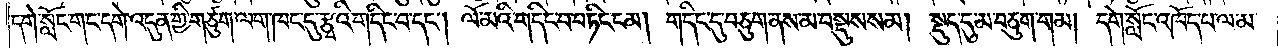དགེ་སློང་གང་དགེ་འདུན་གྱི་གཙུག་ལག་ཁང་དུ་རྩྭའི་གདིང་བ་དང༌། ལོ་མའི་གདིང་བ་བཏིང་ངམ། གདིང་དུ་བཅུག་ནས་མ་བསྡུས་སམ། སྡུད་དུ་མ་བཅུག་གམ། དགེ་སློང་འཁོད་པ་ལ་མ་
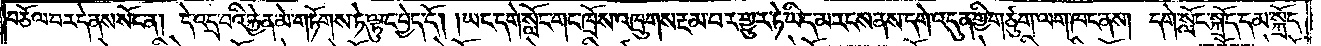བཅོལ་བར་དེ་ནས་སོང་ན། དེ་འདྲ་བའི་རྐྱེན་མེ་གཏོགས་ཏེ་ལྟུང་བྱེད་དོ། །ཡང་དགེ་སློང་གང་ཁྲོས་འཁྲུགས་རྔམ་པར་གྱུར་ཏེ་ཡིད་མ་རངས་ནས་དགེ་འདུན་གྱི་གཙུག་ལག་ཁང་ནས། དགེ་སློང་སྐྲོད་དམ་སྐྲོད་
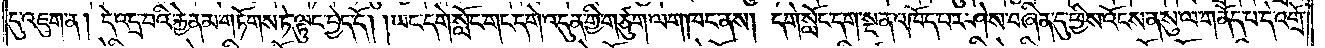དུ་འཇུག་ན། དེ་འདྲ་བའི་རྐྱེན་མ་གཏོགས་ཏེ་ལྟུང་བྱེད་དོ། །ཡང་དགེ་སློང་གང་དགེ་འདུན་གྱི་གཙུག་ལག་ཁང་ནས། དགེ་སློང་དག་སྔ་ན་འཁོད་པར་ཤེས་བཞིན་དུ་ཕྱིས་འོངས་ན་སུ་ལ་གནོད་པ་དེ་འགྲོ་
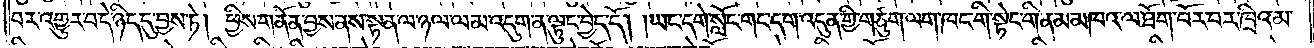བར་འགྱུར་བ་དེ་ཉིད་དུ་བྱས་ཏེ། ཕྱིས་གནོན་བྱས་ནས་སྟན་ལ་ཉལ་ལམ་འདུག་ན་ལྟུང་བྱེད་དོ། །ཡང་དགེ་སློང་གང་དག་འདུན་གྱི་གཙུག་ལག་ཁང་གི་སྟེང་གི་ནམ་མཁའ་ལ་ཐོག་པོར་བར་ཁྲིའམ་
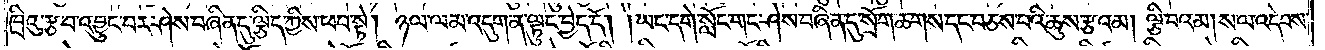ཁྲིའུ་རྩ་བ་འབྱུང་བར་ཤེས་བཞིན་དུ་ལྕིད་ཀྱིས་ཕབ་སྟེ། ཉལ་ལམ་འདུག་ན་ལྟུང་བྱེད་དོ། །ཡང་དགེ་སློང་གང་ཤེས་བཞིན་དུ་སྲོག་ཆགས་དང་བཅས་པའི་ཆུས་རྩའམ། ལྕི་བའམ། ས་ལ་འདེབས་
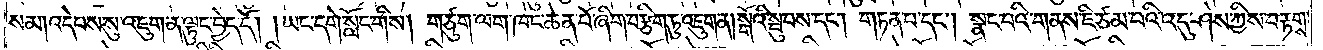སམ འདེབས་སུ་འཇུག་ན་ལྟུང་བྱེད་དོ། །ཡང་དགེ་སློང་གིས། གཙུག་ལག་ཁང་ཆེན་པོ་ཞིག་བརྩིག་ཏུ་འཇུག་ན།སྒོའི་སྦུབས་དང༌། གཏན་པ་དང༌། སྣང་བའི་གནས་ཇི་ཙམ་པའི་འདུ་ཤེས་ཀྱིས་བརྟགས་
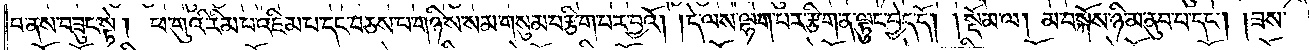པ་ནས་བཟུང་སྟེ། ཕ་གུའི་རིམ་པ་འཇིམ་པ་དང་བཅས་པ་གཉིས་སམ་གསུམ་བརྩིག་པར་བྱའོ། །དེ་ལས་ལྷག་པར་རྩིག་ན་ལྟུང་བྱེད་དོ།    །སྡོམ་ལ། མ་བསྐོས་ཉི་མ་ནུབ་པ་དང༌། ཟས་
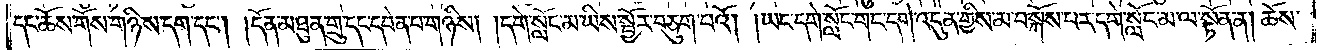དང་ཆོས་གོས་གཉིས་དག་དང༌། །དོན་མཐུན་གྲུ་དང་དབེན་པ་གཉིས། །དགེ་སློང་མ་ཡིས་སྦྱོར་བཅུག་པའོ། །ཡང་དགེ་སློང་གང་དགེ་འདུན་གྱིས་མ་བསྐོས་པར་དགེ་སློང་མ་ལ་སྟོན་ན། ཆོས་
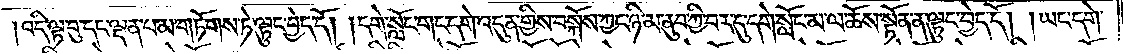།འདི་ལྟ་བུ་དང་ལྡན་པ་མ་གཏོགས་ཏེ་ལྟུང་བྱེད་དོ། །དགེ་སློང་གང་དགེ་འདུན་གྱིས་བསྐོས་ཀྱང་ཉི་མ་ནུབ་ཀྱི་བར་དུ་དགེ་སློང་མ་ལ་ཆོས་སྟོན་ན་ལྟུང་བྱེད་དོ། །ཡང་དགེ་
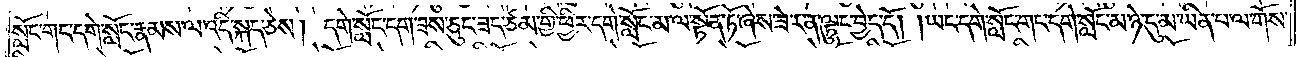སློང་གང་དགེ་སློང་རྣམས་ལ་འདི་སྐད་ཅེས། དགེ་སློང་དག་ཟས་ཅུང་ཟད་ཙམ་གྱི་ཕྱིར་དགེ་སློང་མ་ལ་སྟོན་ཏོ་ཞེས་ཟེར་ན་ལྟུང་བྱེད་དོ། །ཡང་དགེ་སློང་གང་དགེ་སློང་མ་ཉེ་དུ་མ་ཡིན་པ་ལ་གོས་
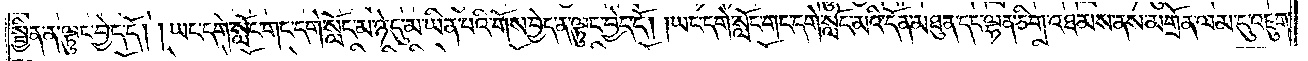སྦྱིན་ན་ལྟུང་བྱེད་དོ། །ཡང་དགེ་སློང་གང་དགེ་སློང་མ་ཉེ་དུ་མ་ཡིན་པའི་གོས་བྱེད་ན་ལྟུང་བྱེད་དོ། །ཡང་དགེ་སློང་གང་དགེ་སློང་མའི་དོན་མཐུན་དང་ལྷན་ཅིག་འཐམས་ནས་མགྲོན་ལམ་དུ་འཇུག་
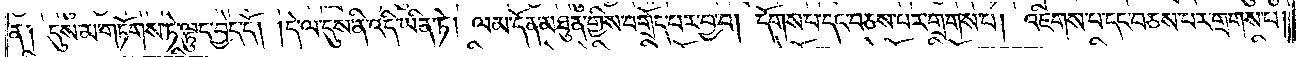ན༑ དུས་མ་གཏོགས་ཏེ་ལྟུང་བྱེད་དོ། །དེ་ལ་དུས་ནི་འདི་ཡིན་ཏེ། ལམ་དོན་མཐུན་གྱིས་བགྲོད་པར་བྱ་བ། དོགས་པ་དང་བཅས་པར་གྲགས་པ། འཇིགས་པ་དང་བཅས་པར་གྲགས་པ།
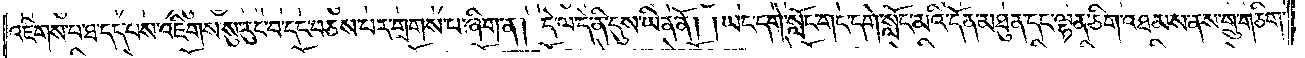འཇིགས་པ་ཐ་དད་པས་འཇིགས་སུ་རུང་བ་དང་བཅས་པར་གྲགས་པ་ཞིག་ན། དེ་ལ་དེ་ནི་དུས་ཡིན་ནོ། །ཡང་དགེ་སློང་གང་དགེ་སློང་མའི་དོན་མཐུན་དང་ལྷན་ཅིག་འཐམས་ནས་གྲུ་གཅིག་
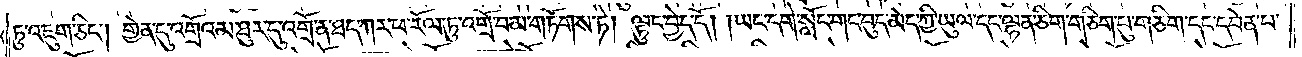ཏུ་འཇུག་ཅིང༌། གྱེན་དུ་འགྲོའམ་ཐུར་དུ་འགྲོ་ན་ཐད་ཀར་ཕ་རོལ་ཏུ་འགྲོ་བ་མ་གཏོགས་ཏེ། ལྟུང་བྱེད་དོ། །ཡང་དགེ་སློང་གང་བུད་མེད་ཀྱི་ཡུལ་དང་ལྷན་ཅིག་གཅིག་པུ་གཅིག་དང་དབེན་པ་
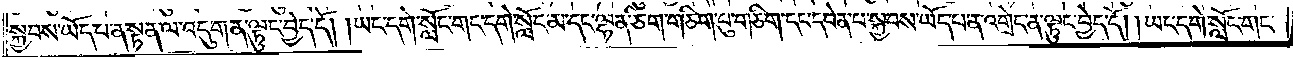སྐྱབས་ཡོད་པ་ན་སྟན་ལ་འདུག་ན་ལྟུང་བྱེད་དོ། །ཡང་དགེ་སློང་གང་དགེ་སློང་མ་དང་ལྷན་ཅིག་གཅིག་པུ་གཅིག་དང་དབེན་པ་སྐྱབས་ཡོད་པ་ན་འགྲེང་ན་ལྟུང་བྱེད་དོ། །ཡང་དགེ་སློང་གང་
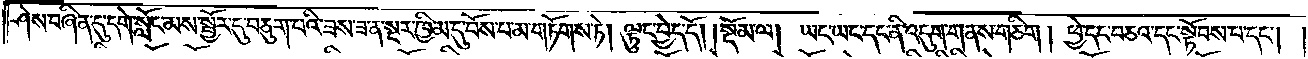ཤེས་བཞིན་དུ་དགེ་སློང་མས་སྦྱོར་དུ་བཅུག་པའི་ཟས་ཟ་ན་སྔར་ཁྱིམ་དུ་བོས་པ་མ་གཏོགས་ཏེ། ལྟུང་བྱེད་དོ།    །སྡོམ་ལ། ཡང་ཡང་དང་ནི་འདུག་གནས་གཅིག །ཕྱེ་དང་བཅའ་དང་སྟོབས་པ་དང༌། །
